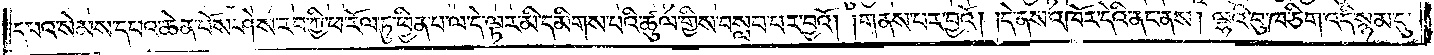དཔའ་སེམས་དཔའ་ཆེན་པོས་ཤེས་རབ་ཀྱི་ཕ་རོལ་ཏུ་ཕྱིན་པ་ལ་དེ་ལྟར་མི་དམིགས་པའི་ཚུལ་གྱིས་བསླབ་པར་བྱའོ། །གནས་པར་བྱའོ། །དེ་ནས་འཁོར་དེའི་ནང་ནས། ལྷའི་བུ་ཁ་ཅིག་འདི་སྙམ་དུ་
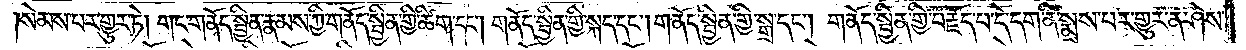སེམས་པར་གྱུར་ཏེ། གང་གནོད་སྦྱིན་རྣམས་ཀྱི་གནོད་སྦྱིན་གྱི་ཚིག་དང༌། གནོད་སྦྱིན་གྱི་སྐད་དང༌། གནོད་སྦྱིན་གྱི་སྒྲ་དང༌། གནོད་སྦྱིན་གྱི་བརྗོད་པ་དེ་དག་ནི་སྨྲས་པར་གྱུར་ན་ཤེས་
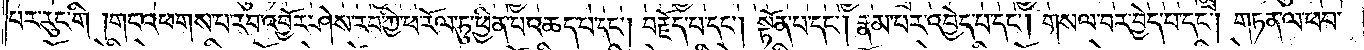པར་རུང་གི །གང་འཕགས་པ་རབ་འབྱོར་ཤེས་རབ་ཀྱི་ཕ་རོལ་ཏུ་ཕྱིན་པ་འཆད་པ་དང༌། བརྗོད་པ་དང༌། སྟོན་པ་དང༌། རྣམ་པར་འབྱེད་པ་དང་གསལ་བར་བྱེད་པ་དང༌། གཏན་ལ་ཕབ་
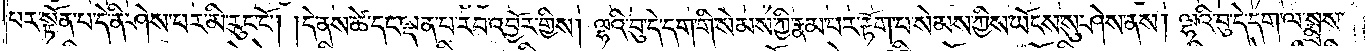པར་སྟོན་པ་དེ་ནི་ཤེས་པར་མི་རུང་ངོ༌། །དེ་ནས་ཚེ་དང་ལྡན་པ་རབ་འབྱོར་གྱིས། ལྷའི་བུ་དེ་དག་གི་སེམས་ཀྱི་རྣམ་པར་རྟོག་པ་སེམས་ཀྱིས་ཡོངས་སུ་ཤེས་ནས། ལྷའི་བུ་དེ་དག་ལ་སྨྲས་
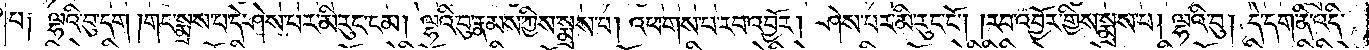པ༏ ལྷའི་བུ་དག །གང་སྨྲས་པ་དེ་ཤེས་པར་མི་རུང་ངམ། ལྷའི་བུ་རྣམས་ཀྱིས་སྨྲས་པ། འཕགས་པ་རབ་འབྱོར། ཤེས་པར་མི་རུང་ངོ༌། །རབ་འབྱོར་གྱིས་སྨྲས་པ། ལྷའི་བུ། དེ་དག་ནི་འདི་
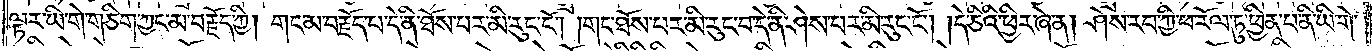ལྟར་ཡི་གེ་གཅིག་ཀྱང་མ་བརྗོད་ཀྱི། གང་མ་བརྗོད་པ་དེ་ནི་ཐོས་པར་མི་རུང་ངོ༌། །གང་ཐོས་པར་མི་རུང་བ་དེ་ནི་ཤེས་པར་མི་རུང་ངོ༌། །དེ་ཅིའི་ཕྱིར་ཞེ་ན། ཤེས་རབ་ཀྱི་ཕ་རོལ་ཏུ་ཕྱིན་པ་ནི་ཡི་གེ་
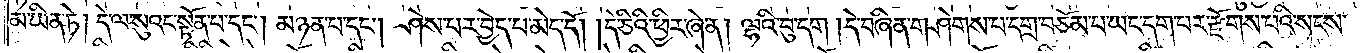མ་ཡིན་ཏེ། དེ་ལ་སུའང་སྟོན་པ་དང༌། མཉན་པ་དང༌། ཤེས་པར་བྱེད་པ་མེད་དོ། །དེ་ཅིའི་ཕྱིར་ཞེ་ན། ལྷའི་བུ་དག །དེ་བཞིན་གཤེགས་པ་དགྲ་བཅོམ་པ་ཡང་དག་པར་རྫོགས་པའི་སངས་
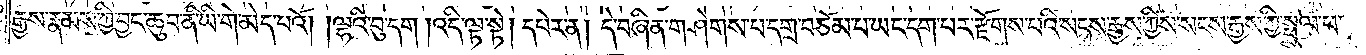རྒྱས་རྣམས་ཀྱི་བྱང་ཆུབ་ནི་ཡི་གེ་མེད་པའོ། །ལྷའི་བུ་དག །འདི་ལྟ་སྟེ། དཔེར་ན། དེ་བཞིན་གཤེགས་པ་དགྲ་བཅོམ་པ་ཡང་དག་པར་རྫོགས་པའི་སངས་རྒྱས་ཀྱིས་སངས་རྒྱས་ཀྱི་སྤྲུལ་པ་
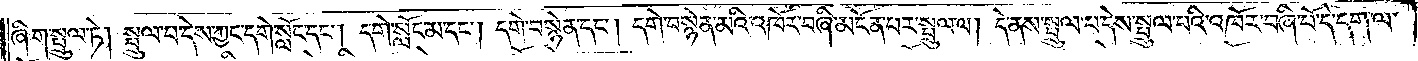ཞིག་སྤྲུལ་ཏེ། སྤྲུལ་པ་དེས་ཀྱང་དགེ་སློང་དང༌། དགེ་སློང་མ་དང༌། དགེ་བསྙེན་དང༌། དགེ་བསྙེན་མའི་འཁོར་བཞི་མངོན་པར་སྤྲུལ་པ། དེ་ནས་སྤྲུལ་པ་དེས་སྤྲུལ་པའི་འཁོར་བཞི་པོ་དེ་དག་ལ་
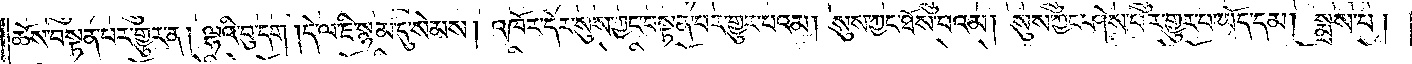ཆོས་བསྟན་པར་གྱུར་ན། ལྷའི་བུ་དག །དེ་ལ་ཇི་སྙམ་དུ་སེམས། འཁོར་དེར་སུས་ཀྱང་བསྟན་པར་གྱུར་པའམ། སུས་ཀྱང་ཐོས་པའམ། སུས་ཀྱང་ཤེས་པར་གྱུར་པ་ཡོད་དམ། སྨྲས་པ།
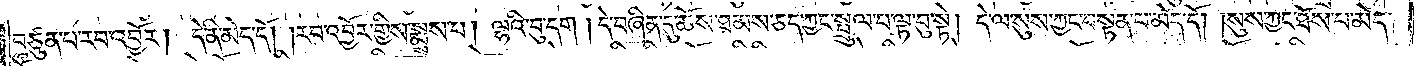བཙུན་པ་རབ་འབྱོར། དེ་ནི་མེད་དོ། །རབ་འབྱོར་གྱིས་སྨྲས་པ། ལྷའི་བུ་དག །དེ་བཞིན་དུ་ཆོས་ཐམས་ཅད་ཀྱང་སྤྲུལ་པ་ལྟ་བུ་སྟེ། དེ་ལ་སུས་ཀྱང་བསྟན་པ་མེད་དོ། །སུས་ཀྱང་ཐོས་པ་མེད་
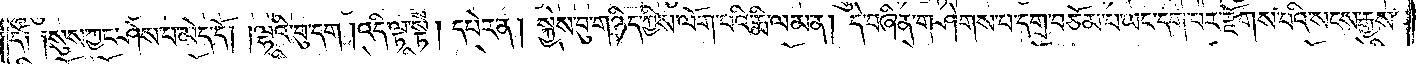དོ༏ ༏སུས་ཀྱང་ཤེས་པ་མེད་དོ། །ལྷའི་བུ་དག །འདི་ལྟ་སྟེ། དཔེར་ན། སྐྱེས་བུ་གཉིད་ཀྱིས་ལོག་པའི་རྨི་ལམ་ན། དེ་བཞིན་གཤེགས་པ་དགྲ་བཅོམ་པ་ཡང་དག་པར་རྫོགས་པའི་སངས་རྒྱས་
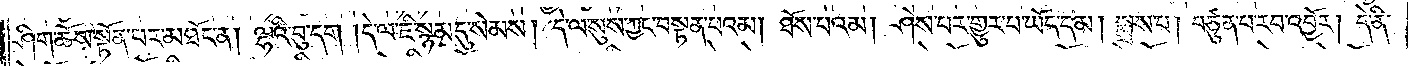ཤིག་ཆོས་སྟོན་པར་མཐོང་ན། ལྷའི་བུ་དག །དེ་ལ་ཇི་སྙམ་དུ་སེམས། དེ་ལ་སུས་ཀྱང་བསྟན་པ་འམ། ཐོས་པ་འམ། ཤེས་པར་གྱུར་པ་ཡོད་དམ། སྨྲས་པ། བཙུན་པ་རབ་འབྱོར། དེ་ནི་
